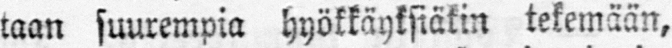taan suurempia hyökkäyksiäkin tekemään,
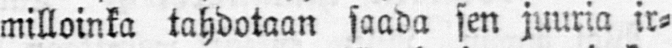milloinka tahdotaan saada sen juuria ir-
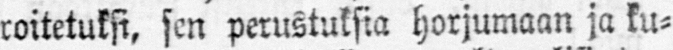roitetuksi, sen perustuksia horjumaan ja ku-
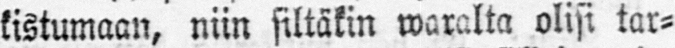kistumaan, niin siltäkin waralta olisi tar-
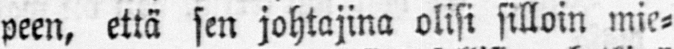peen, että sen johtajina olisi silloin mie-
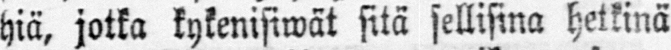hiä, jotka kykenisiwät sitä sellisina hetkinä
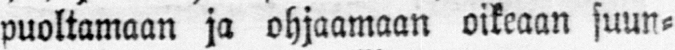puoltamaan ja ohjaamaan oikeaan suun-
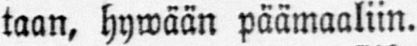taan, hywään päämaaliin.
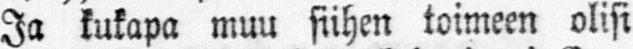Ja kukapa muu siihen toimeen olisi
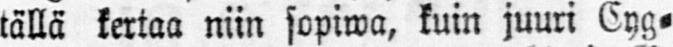tällä kertaa niin sopiwa, kuin juuri Cyg-
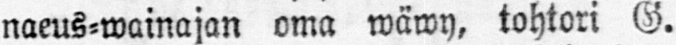naeus-wainajan oma wäwy, tohtori G.
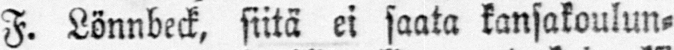F. Lönnbeck, siitä ei saata kansakoulun-
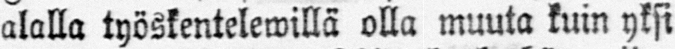alalla työskentelewillä olla muuta kuin yksi
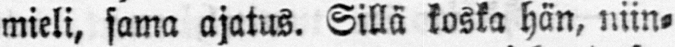mieli, sama ajatus. Sillä koska hän, niin-
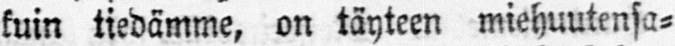kuin tiedämme, on täyteen miehuutensa-
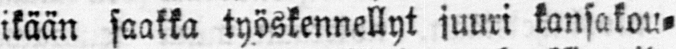ikään saakka työskennellyt juuri kansakou-
